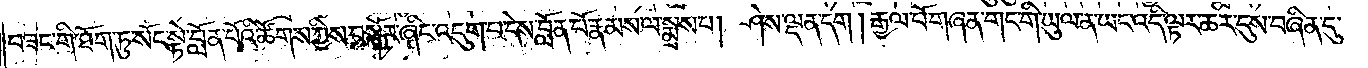བཟང་གི་ཐོག་ཏུ་སོང་སྟེ་བློན་པོའི་ཚོགས་ཀྱིས་བསྐོར་ཞིང་འདུག་པ་དེས་བློན་པོ་རྣམས་ལ་སྨྲས་པ། ཤེས་ལྡན་དག། རྒྱལ་པོ་གཞན་གང་གི་ཡུལ་ན་ཡང་འདི་ལྟར་ཆར་དུས་བཞིན་དུ་
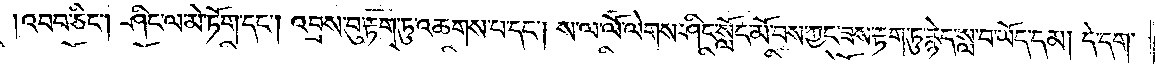འབབ་ཅིང༌། ཤིང་ལ་མེ་ཏོག་དང༌། འབྲས་བུ་རྟག་ཏུ་འཆགས་པ་དང༌། ས་ལ་ལོ་ལེགས་ཤིང་སློང་མོ་བས་ཀྱང་ཟས་རྟག་ཏུ་རྙེད་སླ་བ་ཡོད་དམ། དེ་དག་
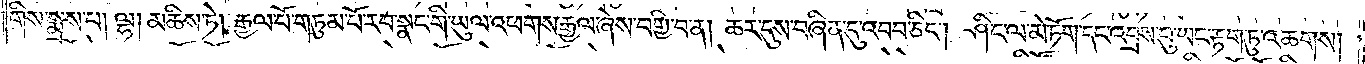གིས་སྨྲས་པ། ལྷ། མཆིས་ཏེ། རྒྱལ་པོ་གཏུམ་པོ་རབ་སྣང་གི་ཡུལ་འཕགས་རྒྱལ་ཞེས་བགྱི་བ་ན། ཆར་དུས་བཞིན་དུ་འབབ་ཅིང༌། ཤིང་ལ་མེ་ཏོག་དང་འབྲས་བུ་ཡང་རྟག་ཏུ་འཆགས།
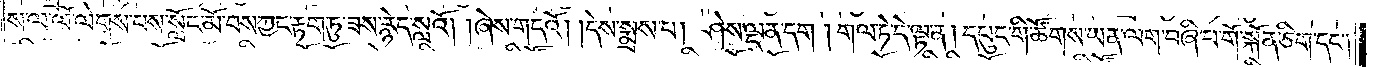ས་ལ་ལོ་ལེགས་པས་སློང་མོ་བས་ཀྱང་རྟག་ཏུ་ཟས་རྙེད་སླའོ། །ཞེས་གདའོ། །དེས་སྨྲས་པ། ཤེས་ལྡན་དག། གལ་ཏེ་དེ་ལྟ་ན། དཔུང་གི་ཚོགས་ཡན་ལག་བཞི་པ་གོ་སྐོན་ཅིག་དང༌།
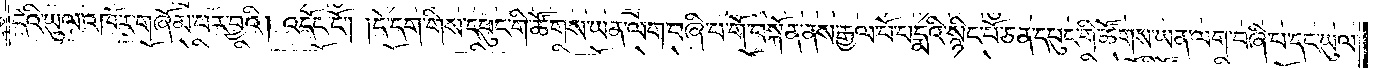དེའི་ཡུལ་འཁོར་གཞོམ་པར་བྱའི། འདོང་ངོ༌། །དེ་དག་གིས་དཔུང་གི་ཚོགས་ཡན་ལག་བཞི་པ་གོ་བསྐོན་ནས་རྒྱལ་པོ་པདྨའི་སྙིང་པོ་ཅན་དཔུང་གི་ཚོགས་ཡན་ལག་བཞི་པ་དང་ཡུལ་
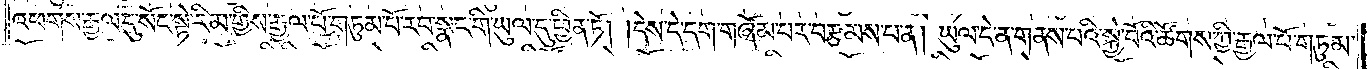འཕགས་རྒྱལ་དུ་སོང་སྟེ་རིམ་གྱིས་རྒྱལ་པོ་གཏུམ་པོ་རབ་སྣང་གི་ཡུལ་དུ་ཕྱིན་ཏོ། །དེས་དེ་དག་གཞོམ་པར་བརྩམས་པ་ན། ཡུལ་དེ་ན་གནས་པའི་སྐྱེ་བོའི་ཚོགས་ཀྱི་རྒྱལ་པོ་གཏུམ་
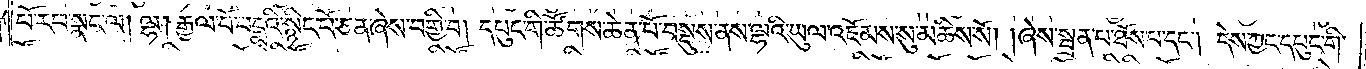པོ་རབ་སྣང་ལ། ལྷ། རྒྱལ་པོ་པདྨའི་སྙིང་པོ་ཅན་ཞེས་བགྱི་བ། དཔུང་གི་ཚོགས་ཆེན་པོ་བསྡུས་ནས་ལྷའི་ཡུལ་འཇོམས་སུ་མཆིས་སོ། །ཞེས་སྦྲན་པ་ཐོས་པ་དང༌། དེས་ཀྱང་དཔུང་གི་
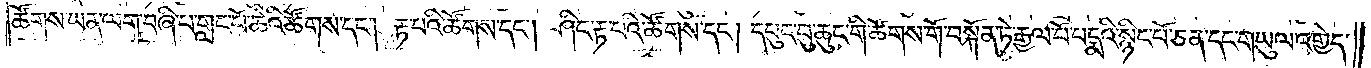ཚོགས་ཡན་ལག་བཞི་པ་གླང་པོ་ཆེའི་ཚོགས་དང༌། རྟ་པའི་ཚོགས་དང༌། ཤིང་རྟ་པའི་ཚོགས་དང༌། དཔུང་བུ་ཆུང་གི་ཚོགས་ག་བསྐོན་ཏེ་རྒྱལ་པོ་པདྨའི་སྙིང་པོ་ཅན་དང་གཡུལ་འགྱེད་
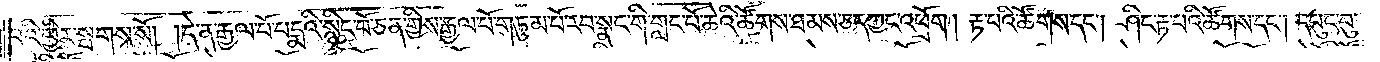པའི་ཕྱིར་སྤགས་སོ། །དེ་ན་རྒྱལ་པོ་པདྨའི་སྙིང་པོ་ཅན་གྱིས་རྒྱལ་པོ་གཏུམ་པོ་རབ་སྣང་གི་གླང་པོ་ཆེའི་ཚོགས་ཐམས་ཅད་ཀྱང་འཕྲོག། རྟ་པའི་ཚོགས་དང༌། ཤིང་རྟ་པའི་ཚོགས་དང༌། དཔུང་བུ་
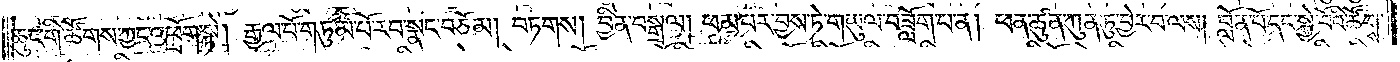ཆུང་གི་ཚོགས་ཀྱང་འཕྲོག་སྟེ། རྒྱལ་པོ་གཏུམ་པོ་རབ་སྣང་བཅོམ། བཏགས། བྱིན་བསྒྲལ། ཕམ་པར་བྱས་ཏེ་གཡུལ་བཟློག་པ་ན། ཕན་ཚུན་ཀུན་ཏུ་བྱེར་བ་ལས། བློན་པོ་དང་སྐྱེ་བོའི་ཚོགས་
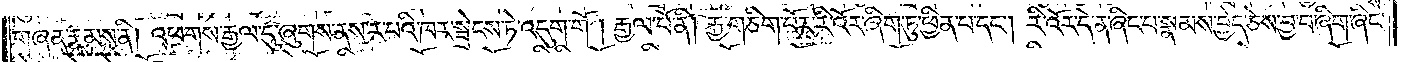གཞན་རྣམས་ནི། འཕགས་རྒྱལ་དུ་ཞུགས་ནས་ར་པའི་ཁར་སྦྲེངས་ཏེ་འདུག་གོ། རྒྱལ་པོ་ནི། རྐྱ་གཅིག་པོར་རི་འོར་ཞིག་ཏུ་ཕྱིན་པ་དང༌། རི་འོར་དེ་ན་ཞིང་པ་སྣམས་བྱེད་ཅེས་བྱ་བ་ཞིག་ཞིང་
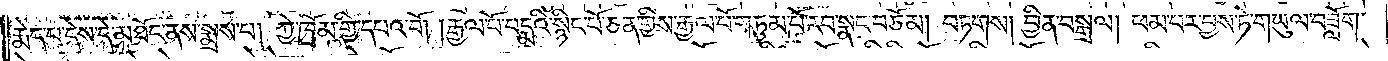རྨེད་པ་དེས་དེ་མཐོང་ནས་སྨྲས་པ། ཀྱེ་ཁྲོམ་གྱི་དཔའ་བོ། །རྒྱལ་པོ་པདྨའི་སྙིང་པོ་ཅན་གྱིས་རྒྱལ་པོ་གཏུམ་པོ་རབ་སྣང་བཅོམ། བཏགས། བྱིན་བསྒྲལ། ཕམ་པར་བྱས་ཏེ་གཡུལ་བཟློག་
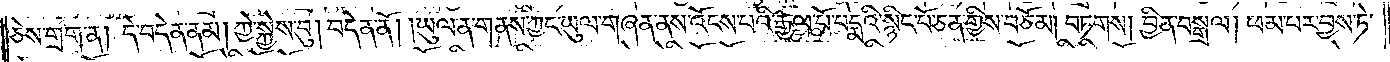ཅེས་གྲག་ན། དེ་བདེན་ནམ། ཀྱེ་སྐྱེས་བུ། བདེན་ནོ། །ཡུལ་ན་གནས་ཀྱང་ཡུལ་གཞན་ནས་འོངས་པའི་རྒྱལ་པོ་པདྨའི་སྙིང་པོ་ཅན་གྱིས་བཅོམ། བཏགས། བྱིན་བསྒྲལ། ཕམ་པར་བྱས་ཏེ་
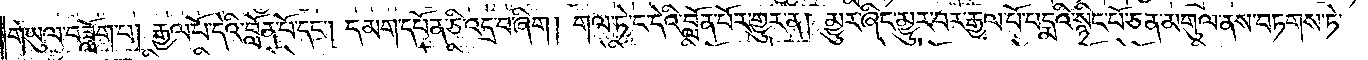གཡུལ་བཟློག་པ། རྒྱལ་པོ་དེའི་བློན་པོ་དང༌། དམག་དཔོན་ཅི་འདྲ་བ་ཞིག། གལ་ཏེ་ང་དེའི་བློན་པོར་གྱུར་ན། མྱུར་ཞིང་མྱུར་བར་རྒྱལ་པོ་པདྨའི་སྙིང་པོ་ཅན་མགུལ་ནས་བཏགས་ཏེ་
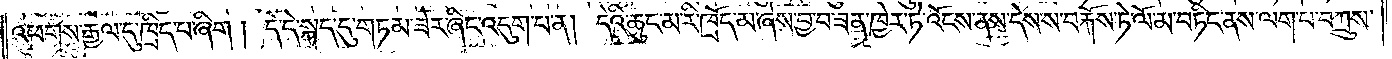འཕགས་རྒྱལ་དུ་ཁྲིད་པ་ཞིག །དེ་དེ་སྐད་དུ་གཏམ་ཟེར་ཞིང་འདུག་པ་ན། དེའི་ཆུང་མ་རི་ཁྲོད་མ་ཞེས་བྱ་བ་ཟན་ཁྱེར་ཏེ་འོངས་ནས་དེས་ས་བརྐོས་ཏེ་ལོ་མ་བཏིང་ནས་ལག་པ་བཀྲུས་
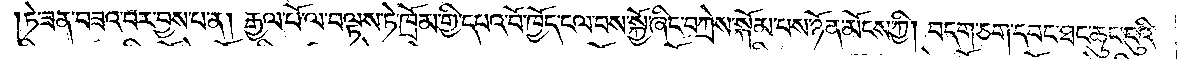ཏེ་ཟན་བཟའ་བར་བྱས་པ་ན། རྒྱལ་པོ་ལ་བལྟས་ཏེ་ཁྲོམ་གྱི་དཔའ་བོ་ཁྱོད་ངལ་བས་སྐྱོ་ཞིང་བཀྲེས་སྐོམ་པས་ཉོན་མོངས་ཀྱི། བདག་ཅག་དབང་ཐང་ཆུང་ངུའི་
